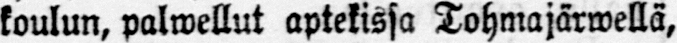koulun, palwellut aptekissa Tohmajärwellä,
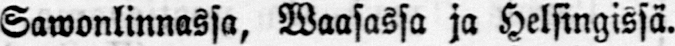Sawonlinnassa, Waasassa ja Helsingissä.
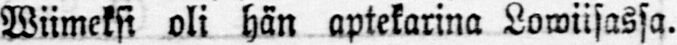Wiimeksi oli hän aptekarina Lowiisassa.
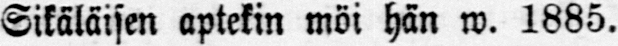Sikäläisen aptekin möi hän w. 1885.
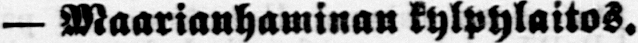— Maarianhaminan kylpylaitos.
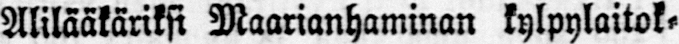Alilääkäriksi Maarianhaminan kylpylaitok-
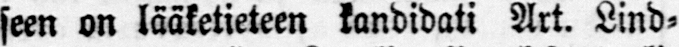seen on lääketieteen kandidati Art. Lind-
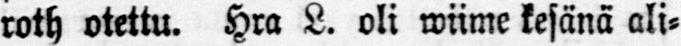roth otettu. Hra L. oli wiime kesänä ali-
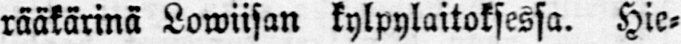rääkärinä Lowiisan kylpylaitoksessa. Hie-
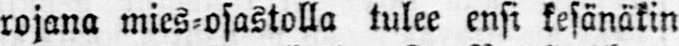rojana mies-osastolla tulee ensi kesänäkin
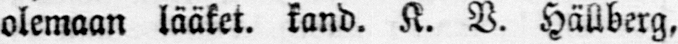olemaan lääket. kand. K. V. Hällberg,
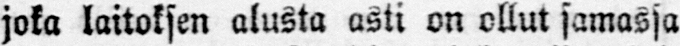joka laitoksen alusta asti on ollut samassa
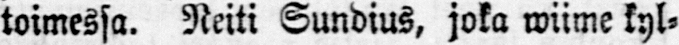toimessa. Neiti Sundius, joka wiime kyl-
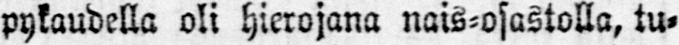pykaudella oli hierojana nais-osastolla, tu-
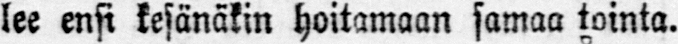lee ensi kesänäkin hoitamaan samaa tointa.
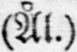(Ål.)
